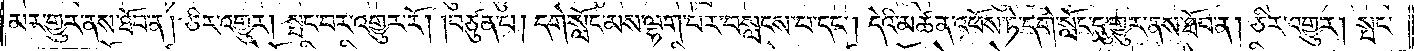མར་གྱུར་ནས་ཐོབ་ན། ཅིར་འགྱུར། སྤང་བར་འགྱུར་རོ། །བཙུན་པ། དགེ་སློང་མས་ལྷག་པར་བསླངས་པ་དང༌། དེའི་མཚན་འཕོས་ཏེ་དགེ་སློང་དུ་གྱུར་ནས་ཐོབ་ན། ཅིར་འགྱུར། སྤང་
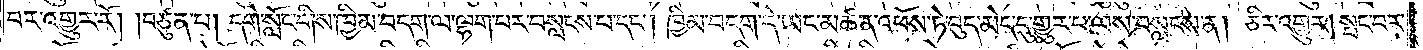བར་འགྱུར་རོ། །བཙུན་པ། དགེ་སློང་གིས་ཁྱིམ་བདག་ལ་ལྷག་པར་བསླངས་པ་དང༌། ཁྱིམ་བདག་དེ་ཡང་མཚན་འཕོས་ཏེ་བུད་མེད་དུ་གྱུར་པ་ལས་བསླངས་ན། ཅིར་འགྱུར། སྤང་བར་
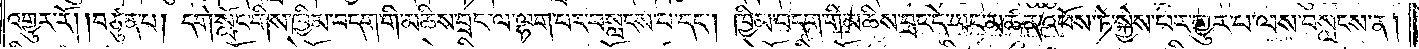འགྱུར་རོ། །བཙུན་པ། དགེ་སློང་གིས་ཁྱིམ་བདག་གི་མཆིས་བྲང་ལ་ལྷག་པར་བསླངས་པ་དང༌། ཁྱིམ་བདག་གི་མཆིས་བྲང་དེ་ཡང་མཚན་འཕོས་ཏེ་སྐྱེས་པར་གྱུར་པ་ལས་བསླངས་ན།
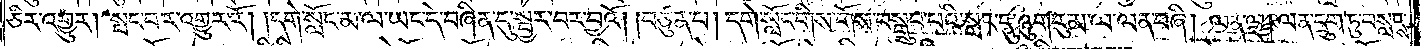ཅིར་འགྱུར། སྤང་བར་འགྱུར་རོ། །དགེ་སློང་མ་ལ་ཡང་དེ་བཞིན་དུ་སྦྱར་བར་བྱའོ། །བཙུན་པ། དགེ་སློང་གིས་གོས་བསྒྲུབ་པའི་སླད་དུ་ཉུག་རུམ་ལ་ལན་བཞི། ལན་ལྔ། ལན་དྲུག་ཏུ་བསླངས་
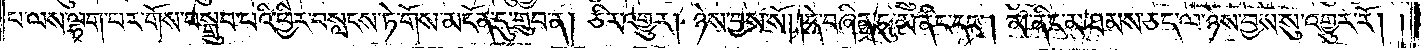པ་ལས་ལྷག་པར་གོས་བསྒྲུབ་པའི་ཕྱིར་བསླངས་ཏེ་གོས་མངོན་དུ་གྲུབ་ན། ཅིར་འགྱུར། ཉེས་བྱས་སོ། །དེ་བཞིན་དུ་མ་ནིང་དང༌། མ་ནིང་མ་ཐམས་ཅད་ལ་ཉེས་བྱས་སུ་འགྱུར་རོ། །
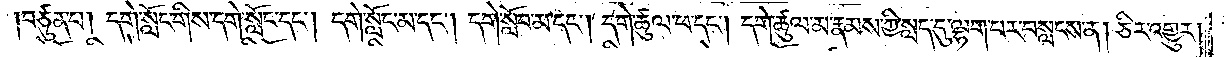བཙུན་པ། དགེ་སློང་གིས་དགེ་སློང་དང༌། དགེ་སློང་མ་དང༌། དགེ་སློབ་མ་དང༌། དགེ་ཚུལ་ཕ་དང༌། དགེ་ཚུལ་མ་རྣམས་ཀྱི་སླད་དུ་ལྷག་པར་བསླངས་ན། ཅིར་འགྱུར།
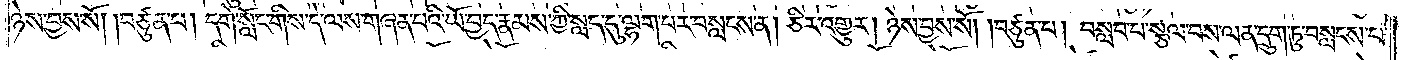ཉེས་བྱས་སོ། །བཙུན་པ། དགེ་སློང་གིས་དེ་ལས་གཞན་པའི་ཡོ་བྱད་རྣམས་ཀྱི་སླད་དུ་ལྷག་པར་བསླངས་ན། ཅིར་འགྱུར། ཉེས་བྱས་སོ། །བཙུན་པ། བསླབ་པ་སྩལ་བས་ལན་དྲུག་ཏུ་བསླངས་པ་
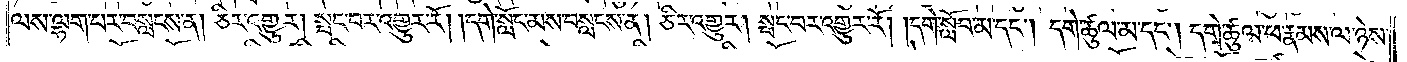ལས་ལྷག་པར་བསླངས་ན། ཅིར་འགྱུར། སྤང་བར་འགྱུར་རོ། །དགེ་སློང་མས་བསླངས་ན། ཅིར་འགྱུར། སྤང་བར་འགྱུར་རོ། །དགེ་སློབ་མ་དང༌། དགེ་ཚུལ་མ་དང༌། དགེ་ཚུལ་ཕ་རྣམས་ལ་ཉེས་
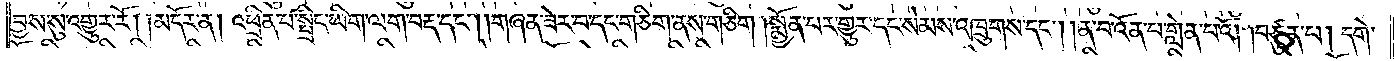བྱས་སུ་འགྱུར་རོ།    །མདོར་ན། འཕྲིན་པ་སྤྲིང་ཡིག་ལག་བརྡ་དང༌། །གཞན་ཟེར་བ་དང་གཅིག་ནས་གཅིག །སྨྱོན་པར་གྱུར་དང་སེམས་འཁྲུགས་དང༌། །ན་བ་འོན་པ་གླེན་པའོ། །བཙུན་པ། དགེ་
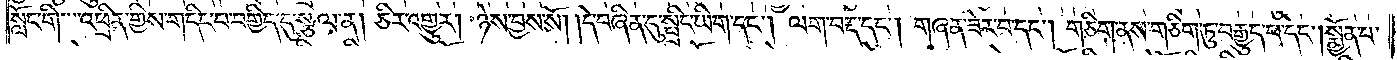སློང་གི་འཕྲིན་གྱིས་གདིང་བ་བགྱིད་དུ་སྩལ་ན། ཅིར་འགྱུར། ཉེས་བྱས་སོ། །དེ་བཞིན་དུ་སྤྲིང་ཡིག་དང༌། ལག་བརྡ་དང༌། གཞན་ཟེར་བ་དང༌། གཅིག་ནས་གཅིག་ཏུ་བརྒྱུད་པ་དང༌། སྨྱོན་པ་
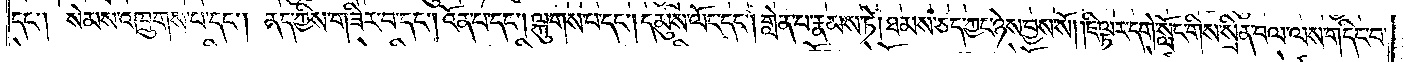དང༌། སེམས་འཁྲུགས་པ་དང༌། ནད་ཀྱིས་གཟིར་བ་དང༌། འོན་པ་དང༌། ལྐུགས་པ་དང༌། དམུས་ལོང་དང༌། གླེན་པ་རྣམས་ཏེ། ཐམས་ཅད་ཀྱང་ཉེས་བྱས་སོ། །ཇི་ལྟར་དགེ་སློང་གིས་སྲིན་བལ་ལས་གདིང་བ་
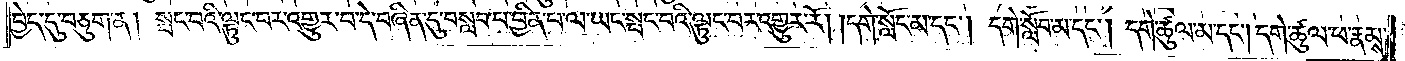བྱེད་དུ་བཅུག་ན། སྤང་བའི་ལྟུང་བར་འགྱུར་བ་དེ་བཞིན་དུ་བསླབ་པ་བྱིན་པ་ལ་ཡང་སྤང་བའི་ལྟུང་བར་འགྱུར་རོ། །དགེ་སློང་མ་དང༌། དགེ་སློབ་མ་དང༌། དགེ་ཚུལ་མ་དང༌། དགེ་ཚུལ་ཕ་རྣམས་
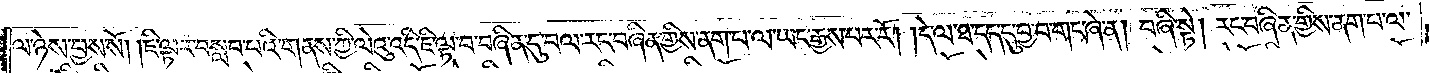ལ་ཉེས་བྱས་སོ། །ཇི་ལྟར་བསླབ་པའི་གནས་ཀྱི་ལེའུ་འདི་ཇི་ལྟ་བ་བཞིན་དུ་བལ་རང་བཞིན་གྱིས་ནག་པ་ལ་ཡང་རྒྱས་པར་རོ། །དེ་ལ་ཐ་དད་དུ་བྱ་བ་གང་ཞེ་ན། བཞི་སྟེ། རང་བཞིན་གྱིས་ནག་པ་ལ་
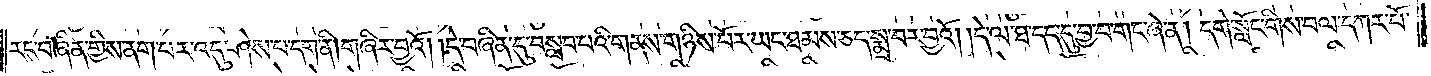རང་བཞིན་གྱིས་ནག་པར་འདུ་ཤེས་པ་དག་ནི། གཞིར་བྱའོ། །དེ་བཞིན་དུ་བསླབ་པའི་གནས་གཉིས་པོར་ཡང་ཐམས་ཅད་སྨྲ་བར་བྱའོ། །དེ་ལ་ཐ་དད་དུ་བྱ་བ་གང་ཞེ་ན། དགེ་སློང་གིས་བལ་དཀར་པོ་
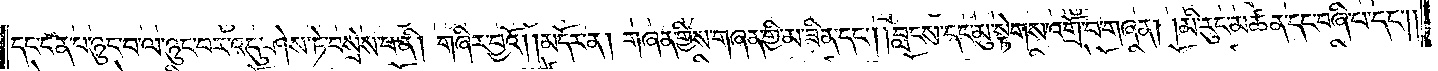དང་ངན་པ་ཉུང་བ་ལ་ཉུང་བར་འདུ་ཤེས་ཏེ་བསྲེས་པ་ནི། གཞིར་བྱའོ།    །མདོར་ན། གཞན་གྱིས་གཞན་གྱི་མ་ཟིན་དང༌། བླངས་དང་མུ་སྟེགས་འགྲོ་བ་གཞན། །མི་རུང་མཚན་དང་བཞི་པ་དང༌།
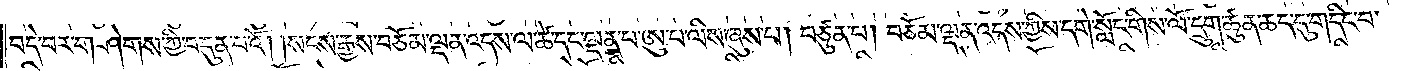བདེ་བར་གཤེགས་ཀྱི་བདུན་པའོ། །སངས་རྒྱས་བཅོམ་ལྡན་འདས་ལ་ཚེ་དང་ལྡན་པ་ཨུ་པ་ལིས་ཞུས་པ། བཙུན་པ། བཅོམ་ལྡན་འདས་ཀྱིས་དགེ་སློང་གིས་ལོ་དྲུག་ཚུན་ཆད་དུ་གདིང་བ་
